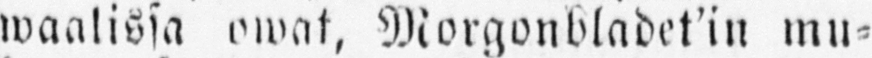waalissa owat, Morgonbladet'in mu-
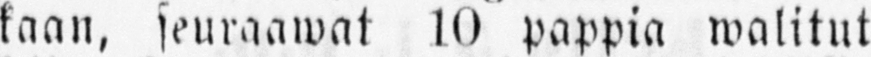kaan, seuraawat 10 pappia walitut
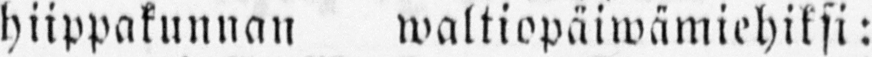hiippakunnan waltiopäiwämiehiksi:
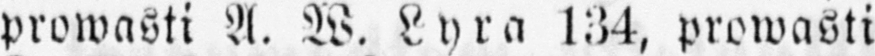prowasti A. W. Lyra 134, prowasti
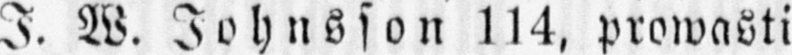J. W. Johnsson 114, prowasti N.
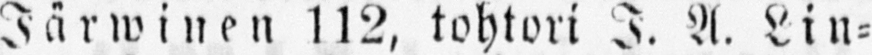Järwinen 112, tohtori I. A. Lin-
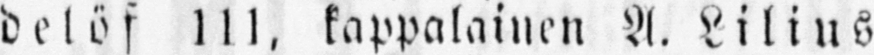delöf 111, kappalainen A. Lilius
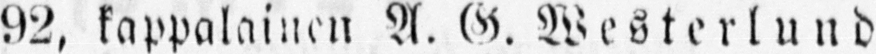92, kappalainen A. G. Westerlund
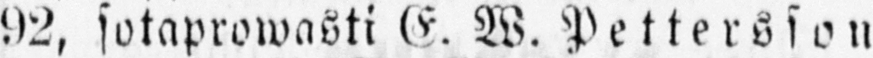92, sotaprowasti E. W. Pettersson
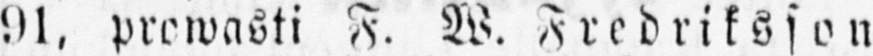91, prowasti F. W. Fredriksson
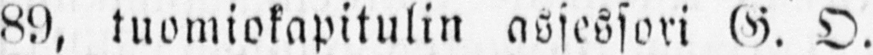89, tuomiokapitulin assessori G. O.
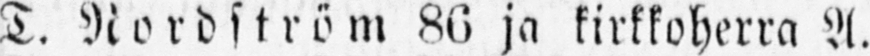T. Nordström 86 ja kirkkoherra A.
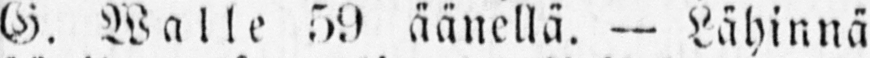G. Walle 59 äänellä. — Lähinnä
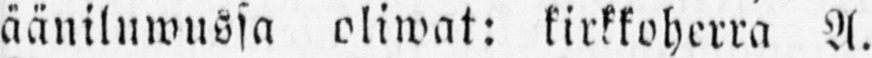ääniluwussa oliwat: kirkkoherra A.
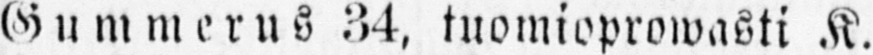Gummerus 34, tuomioprowasti K.
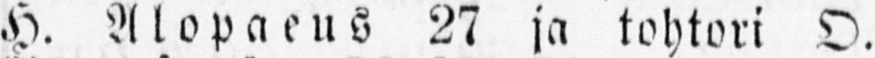H. Alopaeus 27 ja tohtori O.
